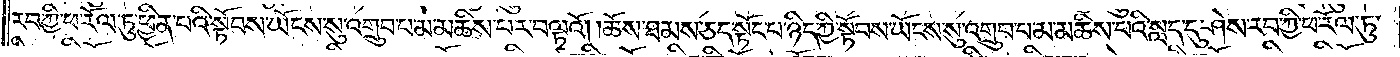རབ་ཀྱི་ཕ་རོལ་ཏུ་ཕྱིན་པའི་སྟོབས་ཡོངས་སུ་འགྲུབ་པ་མ་མཆིས་པར་བལྟའོ། །ཆོས་ཐམས་ཅད་སྟོང་པ་ཉིད་ཀྱི་སྟོབས་ཡོངས་སུ་འགྲུབ་པ་མ་མཆིས་པའི་སླད་དུ་ཤེས་རབ་ཀྱི་ཕ་རོལ་ཏུ་
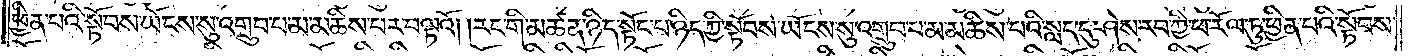ཕྱིན་པའི་སྟོབས་ཡོངས་སུ་འགྲུབ་པ་མ་མཆིས་པར་བལྟའོ། །རང་གི་མཚན་ཉིད་སྟོང་པ་ཉིད་ཀྱི་སྟོབས་ཡོངས་སུ་འགྲུབ་པ་མ་མཆིས་པའི་སླད་དུ་ཤེས་རབ་ཀྱི་ཕ་རོལ་ཏུ་ཕྱིན་པའི་སྟོབས་
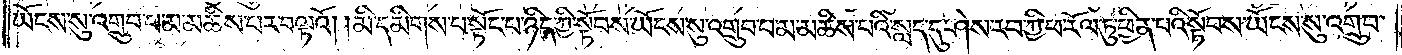ཡོངས་སུ་འགྲུབ་པ་མ་མཆིས་པར་བལྟའོ། །མི་དམིགས་པ་སྟོང་པ་ཉིད་ཀྱི་སྟོབས་ཡོངས་སུ་འགྲུབ་པ་མ་མཆིས་པའི་སླད་དུ་ཤེས་རབ་ཀྱི་ཕ་རོལ་ཏུ་ཕྱིན་པའི་སྟོབས་ཡོངས་སུ་འགྲུབ་
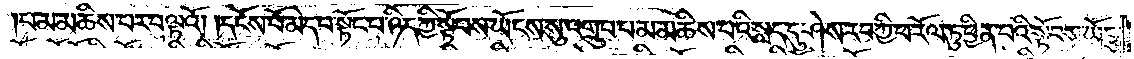པ་མ་མཆིས་པར་བལྟའོ། །དངོས་པོ་མེད་པ་སྟོང་པ་ཉིད་ཀྱི་སྟོབས་ཡོངས་སུ་འགྲུབ་པ་མ་མཆིས་པའི་སླད་དུ་ཤེས་རབ་ཀྱི་ཕ་རོལ་ཏུ་ཕྱིན་པའི་སྟོབས་ཡོངས་
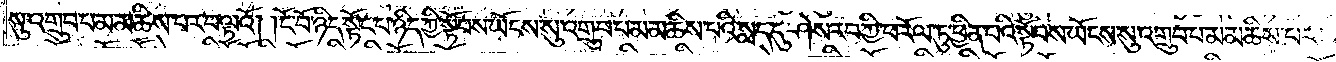སུ་འགྲུབ་པ་མ་མཆིས་པར་བལྟའོ། །ངོ་བོ་ཉིད་སྟོང་པ་ཉིད་ཀྱི་སྟོབས་ཡོངས་སུ་འགྲུབ་པ་མ་མཆིས་པའི་སླད་དུ་ཤེས་རབ་ཀྱི་ཕ་རོལ་ཏུ་ཕྱིན་པའི་སྟོབས་ཡོངས་སུ་འགྲུབ་པ་མ་མཆིས་པར་
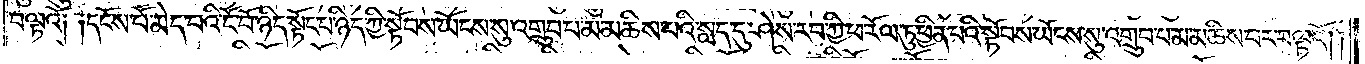བལྟའོ༑ ༑དངོས་པོ་མེད་པའི་ངོ་བོ་ཉིད་སྟོང་པ་ཉིད་ཀྱི་སྟོབས་ཡོངས་སུ་འགྲུབ་པ་མ་མཆིས་པའི་སླད་དུ་ཤེས་རབ་ཀྱི་ཕ་རོལ་ཏུ་ཕྱིན་པའི་སྟོབས་ཡོངས་སུ་འགྲུབ་པ་མ་མཆིས་པར་བལྟའོ། །
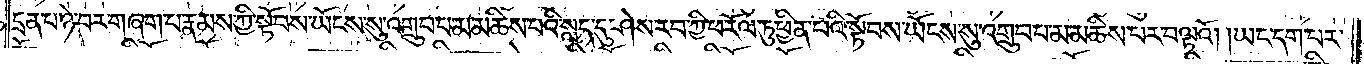དྲན་པ་ཉེ་བར་གཞག་པ་རྣམས་ཀྱི་སྟོབས་ཡོངས་སུ་འགྲུབ་པ་མ་མཆིས་པའི་སླད་དུ་ཤེས་རབ་ཀྱི་ཕ་རོལ་ཏུ་ཕྱིན་པའི་སྟོབས་ཡོངས་སུ་འགྲུབ་པ་མ་མཆིས་པར་བལྟའོ། །ཡང་དག་པར་
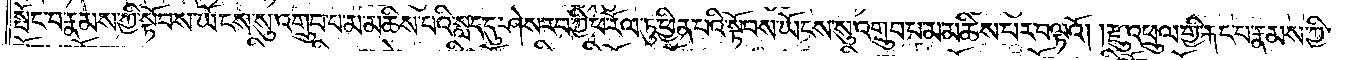སྤོང་བ་རྣམས་ཀྱི་སྟོབས་ཡོངས་སུ་འགྲུབ་པ་མ་མཆིས་པའི་སླད་དུ་ཤེས་རབ་ཀྱི་ཕ་རོལ་ཏུ་ཕྱིན་པའི་སྟོབས་ཡོངས་སུ་འགྲུབ་པ་མ་མཆིས་པར་བལྟའོ། །རྫུ་འཕྲུལ་གྱི་རྐང་པ་རྣམས་ཀྱི་
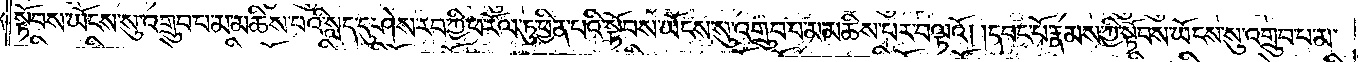སྟོབས་ཡོངས་སུ་འགྲུབ་པ་མ་མཆིས་པའི་སླད་དུ་ཤེས་རབ་ཀྱི་ཕ་རོལ་ཏུ་ཕྱིན་པའི་སྟོབས་ཡོངས་སུ་འགྲུབ་པ་མ་མཆིས་པར་བལྟའོ། །དབང་པོ་རྣམས་ཀྱི་སྟོབས་ཡོངས་སུ་འགྲུབ་པ་མ་
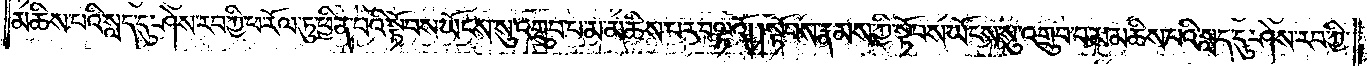མཆིས་པའི་སླད་དུ་ཤེས་རབ་ཀྱི་ཕ་རོལ་ཏུ་ཕྱིན་པའི་སྟོབས་ཡོངས་སུ་འགྲུབ་པ་མ་མཆིས་པར་བལྟའོ། །སྟོབས་རྣམས་ཀྱི་སྟོབས་ཡོངས་སུ་འགྲུབ་པ་མ་མཆིས་པའི་སླད་དུ་ཤེས་རབ་ཀྱི་
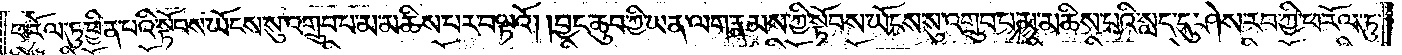ཕ་རོལ་ཏུ་ཕྱིན་པའི་སྟོབས་ཡོངས་སུ་འགྲུབ་པ་མ་མཆིས་པར་བལྟའོ། །བྱང་ཆུབ་ཀྱི་ཡན་ལག་རྣམས་ཀྱི་སྟོབས་ཡོངས་སུ་འགྲུབ་པ་མ་མཆིས་པའི་སླད་དུ་ཤེས་རབ་ཀྱི་ཕ་རོལ་ཏུ་
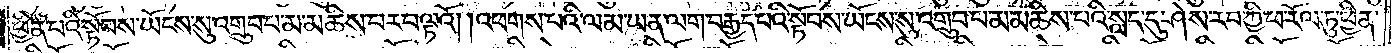ཕྱིན་པའི་སྟོབས་ཡོངས་སུ་འགྲུབ་པ་མ་མཆིས་པར་བལྟའོ། །འཕགས་པའི་ལམ་ཡན་ལག་བརྒྱད་པའི་སྟོབས་ཡོངས་སུ་འགྲུབ་པ་མ་མཆིས་པའི་སླད་དུ་ཤེས་རབ་ཀྱི་ཕ་རོལ་ཏུ་ཕྱིན་
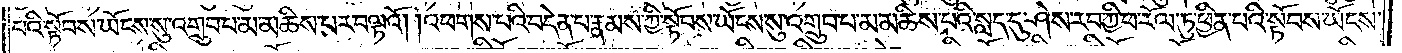པའི་སྟོབས་ཡོངས་སུ་འགྲུབ་པ་མ་མཆིས་པར་བལྟའོ། །འཕགས་པའི་བདེན་པ་རྣམས་ཀྱི་སྟོབས་ཡོངས་སུ་འགྲུབ་པ་མ་མ་མཆིས་པའི་སླད་དུ་ཤེས་རབ་ཀྱི་ཕ་རོལ་ཏུ་ཕྱིན་པའི་སྟོབས་ཡོངས་
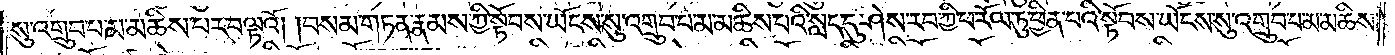སུ་འགྲུབ་པ་མ་མཆིས་པར་བལྟའོ། །བསམ་གཏན་རྣམས་ཀྱི་སྟོབས་ཡོངས་སུ་འགྲུབ་པ་མ་མཆིས་པའི་སླད་དུ་ཤེས་རབ་ཀྱི་ཕ་རོལ་ཏུ་ཕྱིན་པའི་སྟོབས་ཡོངས་སུ་འགྲུབ་པ་མ་མཆིས་
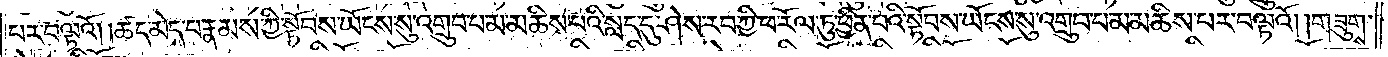པར་བལྟའོ། །ཚད་མེད་པ་རྣམས་ཀྱི་སྟོབས་ཡོངས་སུ་འགྲུབ་པ་མ་མཆིས་པའི་སླད་དུ་ཤེས་རབ་ཀྱི་ཕ་རོལ་ཏུ་ཕྱིན་པའི་སྟོབས་ཡོངས་སུ་འགྲུབ་པ་མ་མཆིས་པར་བལྟའོ། །གཟུགས་
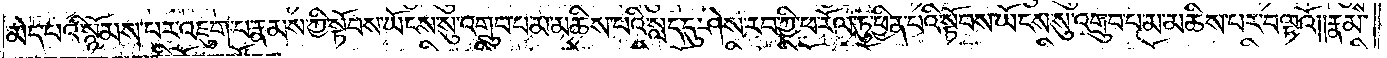མེད་པའི་སྙོམས་པར་འཇུག་པ་རྣམས་ཀྱི་སྟོབས་ཡོངས་སུ་འགྲུབ་པ་མ་མཆིས་པའི་སླད་དུ་ཤེས་རབ་ཀྱི་ཕ་རོལ་ཏུ་ཕྱིན་པའི་སྟོབས་ཡོངས་སུ་འགྲུབ་པ་མ་མཆིས་པར་བལྟའོ། །རྣམ་
